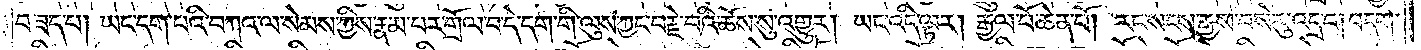བ་ཟད་པ། ཡང་དག་པའི་བཀའ་ལ་སེམས་ཀྱིས་རྣམ་པར་གྲོལ་བ་དེ་དག་གི་ལུས་ཀྱང་བརྗེ་བའི་ཆོས་སུ་འགྱུར། ཡང་འདི་ལྟར། རྒྱལ་པོ་ཆེན་པོ། རང་སངས་རྒྱས་བསེ་རུ་འདྲ་བ། བདག་
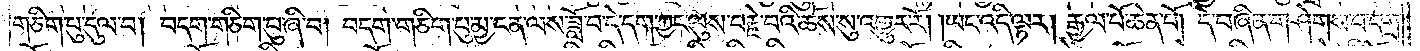གཅིག་པུ་དུལ་བ། བདག་གཅིག་པུ་ཞི་བ། བདག་གཅིག་པུ་མྱ་ངན་ལས་ཟློ་བ་དེ་དག་ཀྱང་ལུས་བརྗེ་བའི་ཆོས་སུ་འགྱུར་རོ། །ཡང་འདི་ལྟར། རྒྱལ་པོ་ཆེན་པོ། དེ་བཞིན་གཤེགས་པ་དགྲ་
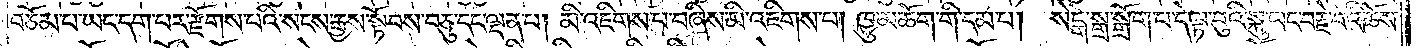བཅོམ་པ་ཡང་དག་པར་རྫོགས་པའི་སངས་རྒྱས་སྟོབས་བཅུ་དང་ལྡན་པ། མི་འཇིགས་པ་བཞིས་མི་འཇིགས་པ། ཁྱུ་མཆོག་གི་དམ་པ། སེངྒེ་སྒྲ་སྒྲོག་པ་དེ་ལྟ་བུའི་སྐུ་ཡང་བརྗེ་བའི་ཆོས་
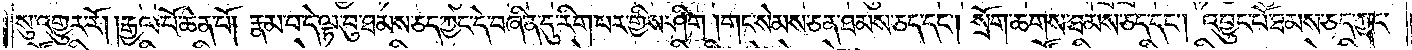སུ་འགྱུར་རོ། །རྒྱལ་པོ་ཆེན་པོ། རྣམ་པ་དེ་ལྟ་བུ་ཐམས་ཅད་ཀྱང་དེ་བཞིན་དུ་རིག་པར་གྱིས་ཤིག །གང་སེམས་ཅན་ཐམས་ཅད་དང༌། སྲོག་ཆགས་ཐམས་ཅད་དང༌། འབྱུང་པོ་ཐམས་ཅད་ཀྱང་
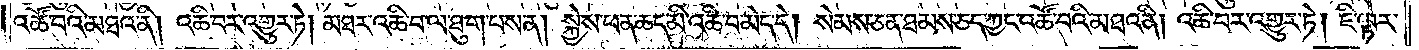འཚོ་བའི་མཐའ་ནི། འཆི་བར་འགྱུར་ཏེ། མཐར་འཆི་བ་ལ་ཐུག་པས་ན། སྐྱེས་ཕན་ཆད་མི་འཆི་བ་མེད་དེ། སེམས་ཅན་ཐམས་ཅད་ཀྱང་འཚོ་བའི་མཐའ་ནི། འཆི་བར་འགྱུར་ཏེ། ཇི་ལྟར་
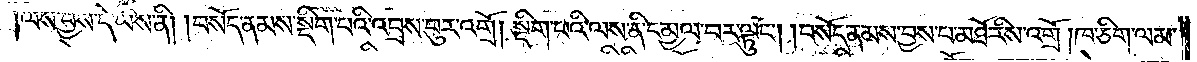ལས་བྱས་དེ་ཡིས་ནི། །བསོད་ནམས་སྡིག་པའི་འབྲས་བུར་འགྲོ། སྡིག་པའི་ལས་ནི་དམྱལ་བར་ལྟུང༌། །བསོད་ནམས་བྱས་པ་མཐོ་རིས་འགྲོ། ཁ་ཅིག་ལམ་
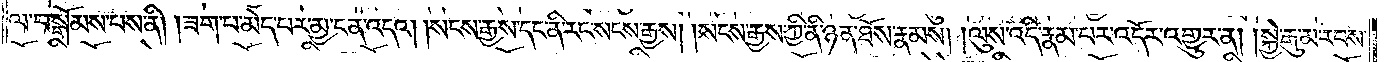ལ་བསྒོམས་པས་ནི། །ཟག་པ་མེད་པར་མྱ་ངན་འདའ། །སངས་རྒྱས་དང་ནི་རང་སངས་རྒྱས། །སངས་རྒྱས་ཀྱི་ནི་ཉན་ཐོས་རྣམས། །ལུས་འདི་རྣམ་པར་འདོར་འགྱུར་ན། །སྐྱེ་རྒུ་མ་རབས་
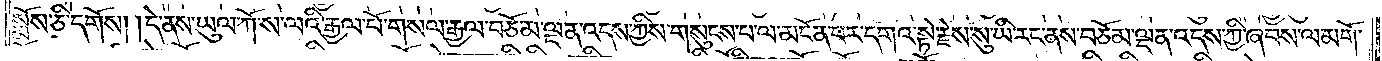སྨོས་ཅི་དགོས། །དེ་ནས་ཡུལ་ཀོ་ས་ལའི་རྒྱལ་པོ་གསལ་རྒྱལ་བཅོམ་ལྡན་འདས་ཀྱིས་གསུངས་པ་ལ་མངོན་པར་དགའ་སྟེ་རྗེས་སུ་ཡི་རང་ནས་བཅོམ་ལྡན་འདས་ཀྱི་ཞབས་ལ་མགོ་
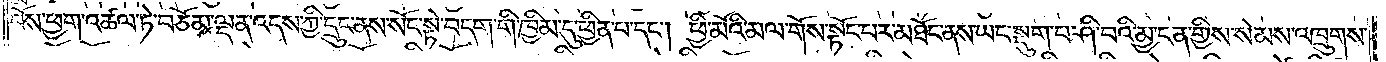བོས་ཕྱག་འཚལ་ཏེ་བཅོམ་ལྡན་འདས་ཀྱི་དྲུང་ནས་སོང་སྟེ་བདག་གི་ཁྱིམ་དུ་ཕྱིན་པ་དང༌། ཕྱི་མོའི་མལ་གོས་སྟོང་པར་མཐོང་ནས་ཡང་སྡུག་པ་ཤི་བའི་མྱ་ངན་གྱིས་སེམས་འཁྲུགས་
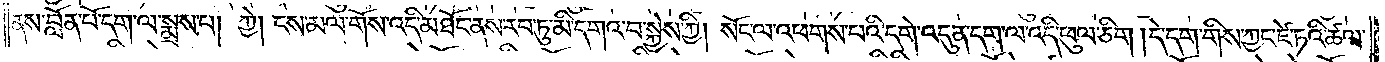ནས་བློན་པོ་དག་ལ་སྨྲས་པ། ཀྱེ། ངས་མལ་གོས་འདི་མཐོང་ནས་རབ་ཏུ་མི་དགའ་བ་སྐྱེས་ཀྱི། སོང་ལ་འཕགས་པའི་དགེ་འདུན་དག་ལ་འདི་ཕུལ་ཅིག །དེ་དག་གིས་ཀྱང་ཛེ་ཏའི་ཚལ་
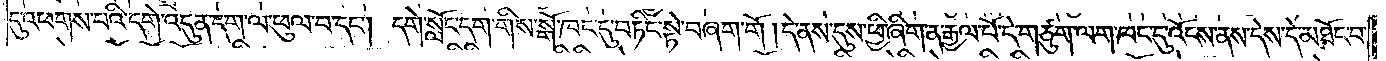དུ་འཕགས་པའི་དགེ་འདུན་དག་ལ་ཕུལ་བ་དང༌། དགེ་སློང་དག་གིས་སྒོ་ཁང་དུ་བཏིང་སྟེ་བཞག་གོ །དེ་ནས་དུས་ཕྱི་ཞིག་ན་རྒྱལ་པོ་དེ་གཙུག་ལག་ཁང་དུ་འོངས་ནས་དེས་དེ་མཐོང་བ་
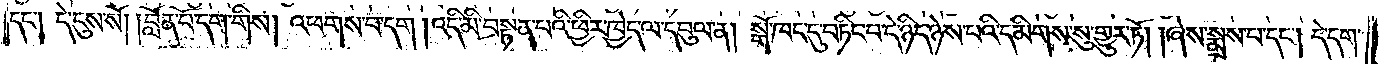དང༌། དེ་དུས་སོ། །བློན་པོ་དག་གིས། འཕགས་པ་དག །འདི་མི་བསྟན་པའི་ཕྱིར་ཁྱེད་ལ་དབུལ་ན། སྒོ་ཁང་དུ་བཏིང་བ་དེ་ཉིད་ཉེས་པའི་དམིགས་སུ་གྱུར་ཏོ། །ཞེས་སྨྲས་པ་དང༌། དེ་དག་
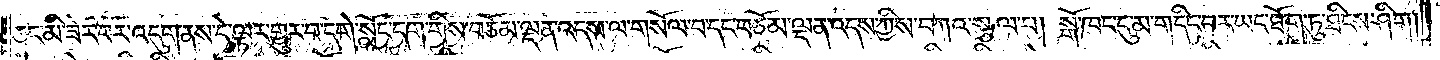ཅང་མི་ཟེར་བར་འདུག་ནས་དེ་ལྟར་གྱུར་པ་དགེ་སློང་དག་གིས་བཅོམ་ལྡན་འདས་ལ་གསོལ་བ་དང་བཅོམ་ལྡན་འདས་ཀྱིས་བཀའ་སྩལ་པ། སྒོ་ཁང་དུ་མ་གདིང་བར་ཡང་ཐོག་ཏུ་ཐིངས་ཤིག།
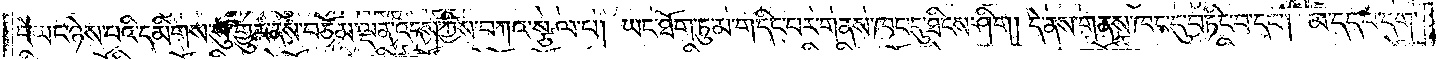དེ་ཡང་ཉེས་པའི་དམིགས་སུ་གྱུར་ནས་བཅོམ་ལྡན་འདས་ཀྱིས་བཀའ་སྩལ་པ། ཡང་ཐོག་ཏུ་མ་གདིང་པར་གནས་ཁང་དུ་ཐིངས་ཤིག །དེ་ནས་གནས་ཁང་དུ་བཏིང་བ་དང༌། མ་དད་པ་དག་
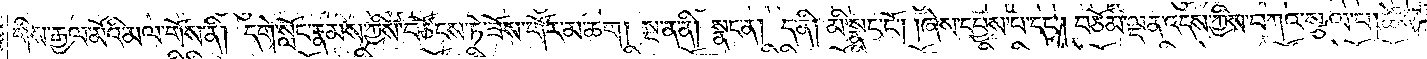གིས་རྒྱལ་མོའི་མལ་གོས་ནི། དགེ་སློང་རྣམས་ཀྱིས་བཙོངས་ཏེ་ཟོས་གོར་མ་ཆག །སྔ་ན་ནི། སྣང་ན། ད་ནི། མི་སྣང་ངོ༌། །ཞེས་དཔྱས་པ་དང༌། བཅོམ་ལྡན་འདས་ཀྱིས་བཀའ་སྩལ་པ། ཚེས་
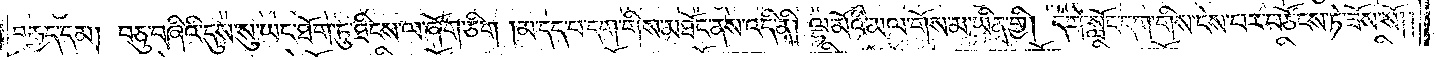བརྒྱད་དམ། བཅུ་བཞིའི་དུས་སུ་ཡང་ཐོག་ཏུ་ཐིངས་ལ་ཞོག་ཅིག །མ་དད་པ་དག་གིས་མཐོང་ནས་འདི་ནི། ལྷ་མོའི་མལ་གོས་མ་ཡིན་གྱི། དགེ་སློང་དག་གིས་ངེས་པར་བཙོངས་ཏེ་ཟོས་སོ། །
